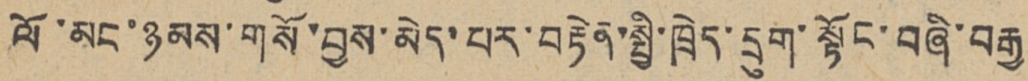ལོ་མང་ཉམས་གསོ་བྱས་མེད་པར་བརྟེན་སྤྱི་ཁྲེད་དྲུག་སྟོང་བཞི་བརྒྱ
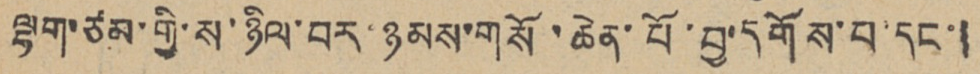ལྷག་ཙམ་གྱི་ས་ཉིལ་བར་ཉམས་གསོ་ཆེན་པོ་བྱ་དགོས་པ་དང་།
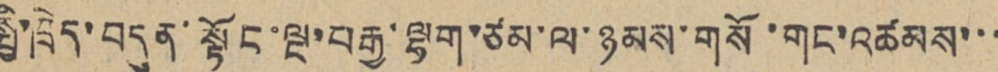སྤྱི་ཁྲེད་བདུན་སྟོང་ལྔ་བརྒྱ་ལྷག་ཙམ་ལ་ཉམས་གསོ་གང་འཚམས་་་
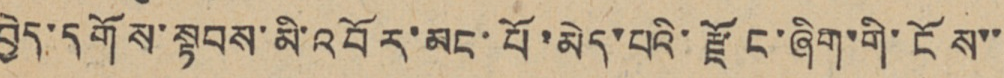བྱེད་དགོས་སྟབས་མི་འབོར་མང་པོ་མེད་པའི་རྫོང་ཞིག་གི་ངོས་་
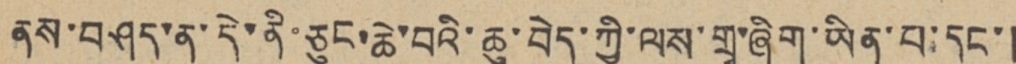ནས་བཤད་ན་དེ་ནི་ཅུང་ཆེ་བའི་ཆུ་བེད་ཀྱི་ལས་གྲྭ་ཞིག་ཡིན་པ་དང་།
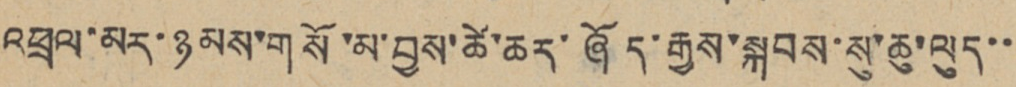འཕྲལ་མར་ཉམས་གསོ་མ་བྱས་ཚེ་ཆར་ཞོད་རྒྱས་སྐབས་སུ་ཆུ་ལུད་་
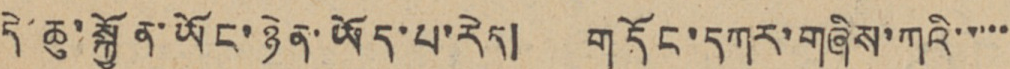དེ་ཆུ་སྐྱོན་ཡོང་ཉེན་ཡོད་པ་རེད། གདོང་དཀར་གཞིས་ཀའི་་་་་
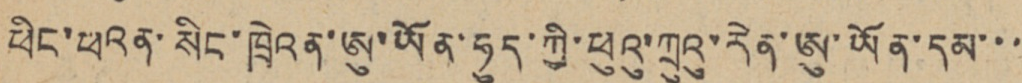ཕིང་ཕའན་སིང་ཁྲེའན་ཨུ་ཡོན་ཧུད་ཀྱི་ཕུའུ་ཀྲུའུ་རེན་ཨུ་ཡོན་དམ་་་
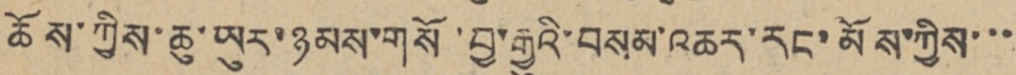ཆོས་ཀྱིས་ཆུ་ཡུར་ཉམས་གསོ་བྱ་རྒྱུའི་བསམ་འཆར་རང་མོས་ཀྱིས་་་
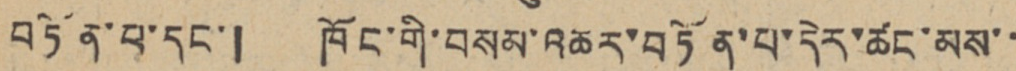བཏོན་པ་དང་། ཁོང་གི་བསམ་འཆར་བཏོན་པ་དེར་ཚང་མས་་
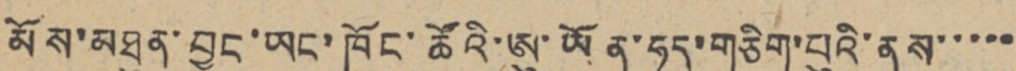མོས་མཐུན་བྱུང་ཡང་ཁོང་ཚོའི་ཨུ་ཡོན་ཧུད་གཅིག་པུའི་ནུས་་་་་
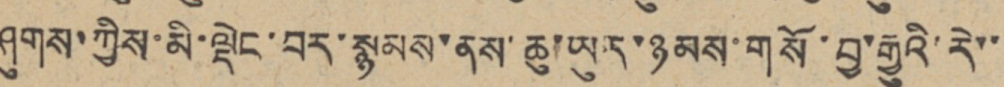ཤུགས་ཀྱིས་མི་ལྡེང་བར་སྙམས་ནས་ཆུ་ཡུར་ཉམས་གསོ་བྱ་རྒྱུའི་རེ་་
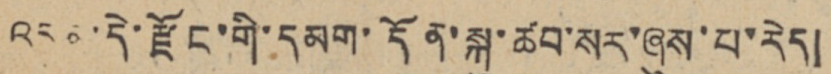འདུན་དེ་རྫོང་གི་དམག་དོན་སྐུ་ཚབ་སར་ཞུས་པ་རེད།
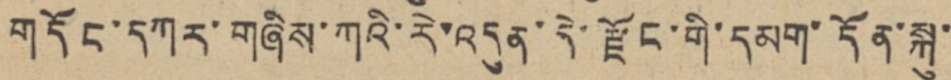གདོང་དཀར་གཞིས་ཀའི་རེ་འདུན་དེ་རྫོང་གི་དམག་དོན་སྐུ་
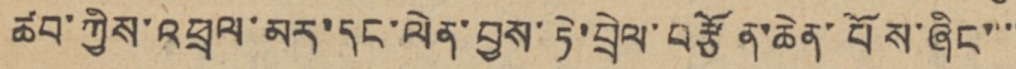ཚབ་ཀྱིས་འཕྲལ་མར་དང་ལེན་བྱས་ཏེ་བྲེལ་བརྩོན་ཆེན་པོས་ཞིང་་་་
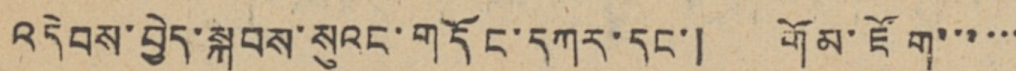འདེབས་བྱེད་སྐབས་སུའང་གདོང་དཀར་དང་། གོམ་ཇོག་་་་་་
